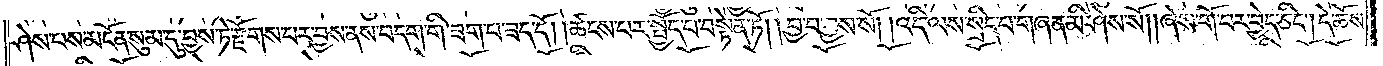ཤེས་པས་མངོན་སུམ་དུ་བྱས་ཏེ་རྫོགས་པར་བྱས་ནས་བདག་གི་ཟག་པ་ཟད་དོ། །ཚངས་པར་སྤྱོད་པ་བསྟེན་ཏོ། །བྱ་བ་བྱས་སོ། །འདི་ལས་སྲིད་པ་གཞན་མི་ཤེས་སོ། །ཞེས་གོ་བར་བྱེད་ཅིང༌། དེ་ཆོས་
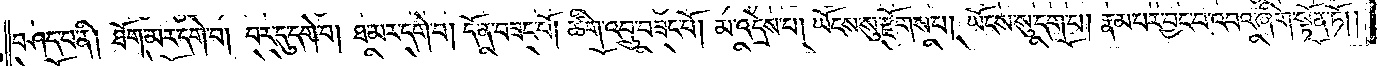བཤད་པ་ནི། ཐོག་མར་དགེ་བ། བར་དུ་དགེ་བ། ཐ་མར་དགེ་བ། དོན་བཟང་པོ། ཚིག་འབྲུ་བཟང་པོ། མ་འདྲེས་པ། ཡོངས་སུ་རྫོགས་པ། ཡོངས་སུ་དག་པ། རྣམ་པར་བྱང་བ་འབའ་ཞིག་སྟོན་ཏོ། །
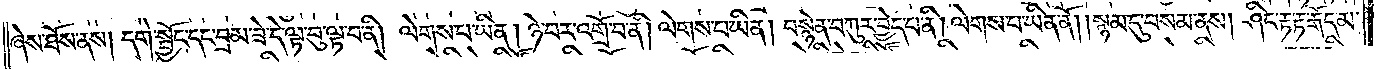ཞེས་ཐོས་ནས། དགེ་སྦྱོང་དང་བྲམ་ཟེ་དེ་ལྟ་བུ་ལྟ་བ་ནི། ལེགས་པ་ཡིན། ཉེ་བར་འགྲོ་བ་ནི། ལེགས་པ་ཡིན། བསྙེན་བཀུར་བྱེད་པ་ནི། ལེགས་པ་ཡིན་ནོ། །སྙམ་དུ་བསམ་ནས། ཤིང་རྟ་རྟ་རྒོད་མ་
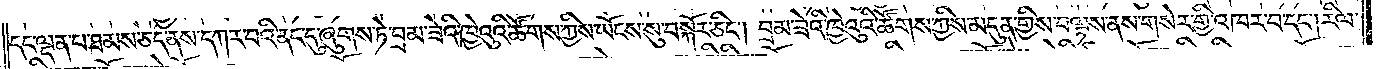དང་ལྡན་པ་ཐམས་ཅད་ནས་དཀར་བའི་ནང་དུ་ཞུགས་ཏེ་བྲམ་ཟེའི་ཁྱེའུའི་ཚོགས་ཀྱིས་ཡོངས་སུ་བསྐོར་ཅིང༌། བྲམ་ཟེའི་ཁྱེའུའི་ཚོགས་ཀྱིས་མདུན་གྱིས་བལྟས་ནས་གསེར་གྱི་འཁར་བ་དང༌། རིལ་
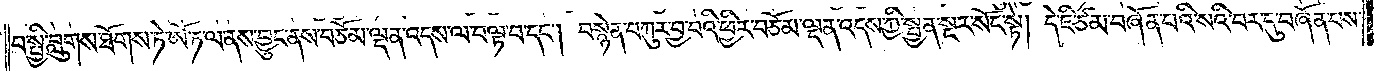བ་སྤྱི་བླུགས་ཐོགས་ཏེ་ཨོ་ཏ་ལ་ནས་བྱུང་ནས་བཅོམ་ལྡན་འདས་ལ་བལྟ་བ་དང༌། བསྙེན་བཀུར་བྱ་བའི་ཕྱིར་བཅོམ་ལྡན་འདས་ཀྱི་སྤྱན་སྔར་སོང་སྟེ། དེ་ཇི་ཙམ་བཞོན་པའི་སའི་བར་དུ་བཞོན་པས་
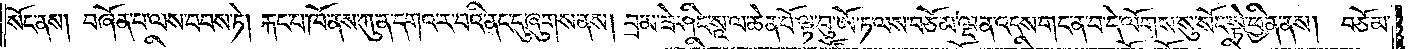སོང་ནས། བཞོན་པ་ལས་བབས་ཏེ། རྐང་པ་ཁོ་ནས་ཀུན་དགའ་ར་བའི་ནང་དུ་ཞུགས་ནས། བྲམ་ཟེ་ཤིང་སཱ་ལ་ཆེན་པོ་ལྟ་བུ་ཨོ་ཏ་ལས་བཅོམ་ལྡན་འདས་གང་ན་བ་དེ་ལོགས་སུ་སོང་སྟེ་ཕྱིན་ནས། བཅོམ་
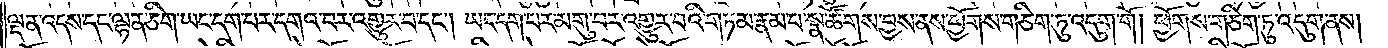ལྡན་འདས་དང་ལྷན་ཅིག་ཡང་དག་པར་དགའ་བར་འགྱུར་བ་དང༌། ཡང་དག་པར་མགུ་བར་འགྱུར་བའི་གཏམ་རྣམ་པ་སྣ་ཚོགས་བྱས་ནས་ཕྱོགས་གཅིག་ཏུ་འདུག་གོ །ཕྱོགས་གཅིག་ཏུ་འདུག་ནས།
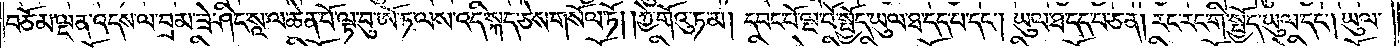བཅོམ་ལྡན་འདས་ལ་བྲམ་ཟེ་ཤིང་སཱ་ལ་ཆེན་པོ་ལྟ་བུ་ཨོ་ཏ་ལས་འདི་སྐད་ཅེས་གསོལ་ཏོ། །ཀྱེ་གོའུ་ཏ་མ། དབང་པོ་ལྔ་པོ་སྤྱོད་ཡུལ་ཐ་དད་པ་དང༌། ཡུལ་ཐ་དད་པ་ཅན། རང་རང་གི་སྤྱོད་ཡུལ་དང༌། ཡུལ་
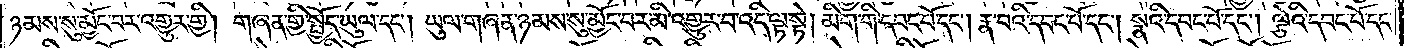ཉམས་སུ་མྱོང་བར་འགྱུར་གྱི། གཞན་གྱི་སྤྱོད་ཡུལ་དང༌། ཡུལ་གཞན་ཉམས་སུ་མྱོང་བར་མི་འགྱུར་བ་འདི་ལྟ་སྟེ། མིག་གི་དབང་པོ་དང༌། རྣ་བའི་དབང་པོ་དང༌། སྣའི་དབང་པོ་དང༌། ལྕེའི་དབང་པོ་དང་
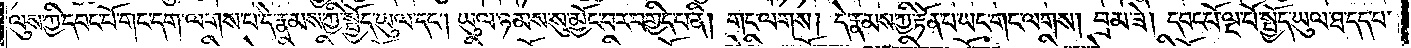ལུས་ཀྱི་དབང་པོ་གང་དག་ལགས་པ་དེ་རྣམས་ཀྱི་སྤྱོད་ཡུལ་དང༌། ཡུལ་ཉམས་སུ་མྱོང་བར་བགྱིད་པ་ནི། གང་ལགས། དེ་རྣམས་ཀྱི་རྟོན་པ་ཡང་གང་ལགས། བྲམ་ཟེ། དབང་པོ་ལྔ་པོ་སྤྱོད་ཡུལ་ཐ་དད་པ་
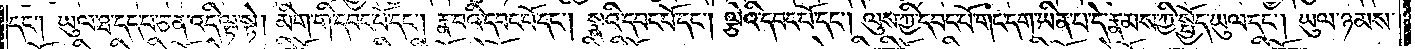དང༌། ཡུལ་ཐ་དད་པ་ཅན་འདི་ལྟ་སྟེ། མིག་གི་དབང་པོ་དང༌། རྣ་བའི་དབང་པོ་དང༌། སྣའི་དབང་པོ་དང༌། ལྕེའི་དབང་པོ་དང༌། ལུས་ཀྱི་དབང་པོ་གང་དག་ཡིན་པ་དེ་རྣམས་ཀྱིས་སྤྱོད་ཡུལ་དང༌། ཡུལ་ཉམས་
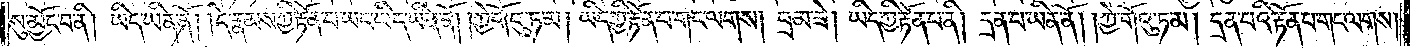སུ་མྱོང་བ་ནི། ཡིད་ཡིན་ནོ། །དེ་རྣམས་ཀྱི་རྟོན་པ་ཡང་ཡིད་ཡིན་ནོ། །ཀྱེ་གོའུ་ཏ་མ། ཡིད་ཀྱི་རྟོན་པ་གང་ལགས། བྲམ་ཟེ། ཡིད་ཀྱི་རྟོན་པ་ནི། དྲན་པ་ཡིན་ནོ། །ཀྱེ་གོའུ་ཏ་མ། དྲན་པའི་རྟོན་པ་གང་ལགས་
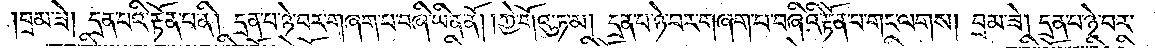།བྲམ་ཟེ། དྲན་པའི་རྟོན་པ་ནི། དྲན་པ་ཉེ་བར་གཞག་པ་བཞི་ཡིན་ནོ། །ཀྱེ་གོའུ་ཏ་མ། དྲན་པ་ཉེ་བར་གཞག་པ་བཞིའི་རྟོན་པ་གང་ལགས། བྲམ་ཟེ། དྲན་པ་ཉེ་བར་
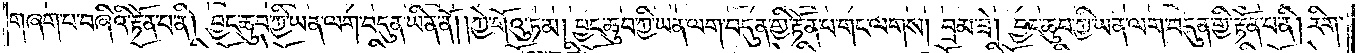གཞག་པ་བཞིའི་རྟོན་པ་ནི། བྱང་ཆུབ་ཀྱི་ཡན་ལག་བདུན་ཡིན་ནོ། །ཀྱེ་གོའུ་ཏ་མ། བྱང་ཆུབ་ཀྱི་ཡན་ལག་བདུན་གྱི་རྟོན་པ་གང་ལགས། བྲམ་ཟེ། བྱང་ཆུབ་ཀྱི་ཡན་ལག་བདུན་གྱི་རྟོན་པ་ནི། རིག་
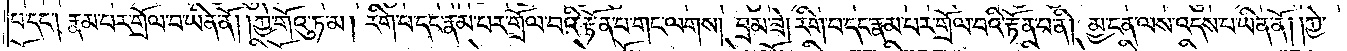པ་དང༌། རྣམ་པར་གྲོལ་བ་ཡིན་ནོ། །ཀྱེ་གོའུ་ཏ་མ། རིག་པ་དང་རྣམ་པར་གྲོལ་བའི་རྟོན་པ་གང་ལགས། བྲམ་ཟེ། རིག་པ་དང་རྣམ་པར་གྲོལ་བའི་རྟོན་པ་ནི། མྱ་ངན་ལས་འདས་པ་ཡིན་ནོ། །ཀྱེ་
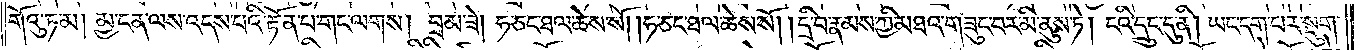གོའུ་ཏ་མ། མྱ་ངན་ལས་འདས་པའི་རྟོན་པ་གང་ལགས། བྲམ་ཟེ། ཧ་ཅང་ཐལ་ཆེས་སོ། །ཧ་ཅང་ཐལ་ཆེས་སོ། །དྲི་བ་རྣམས་ཀྱི་མཐའ་གཟུང་བར་མི་ནུས་ཏེ། ངའི་དྲུང་དུ་ནི། ཡང་དག་པར་སྡུག་
